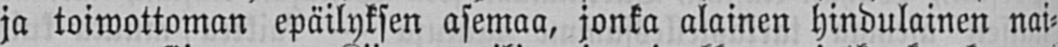ja toiwottoman epäilyksen asemaa, jonka alainen hindulainen nai-
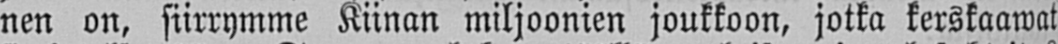nen on, siirrymme Kiinan miljoonien joukkoon, jotka kerskaawat
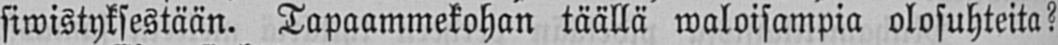siwistyksestään. Tapaammekohan täällä waloisampia olosuhteita?
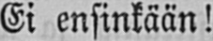Ei ensinkään!
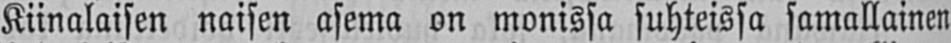Kiinalaisen naisen asema on monissa suhteissa samallainen
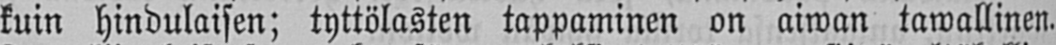kuin hindulaisen; tyttölasten tappaminen on aiwan tawallinen.
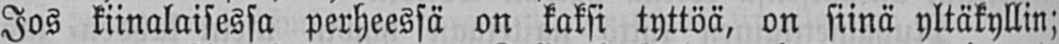Jos kiinalaisessa perheessä on kaksi tyttöä, on siinä yltäkyllin;
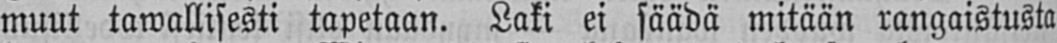muut tawallisesti tapetaan. Laki ei säädä mitään rangaistusta
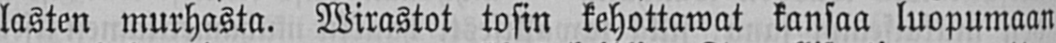lasten murhasta. Wirastot tosin kehottawat kansaa luopumaan
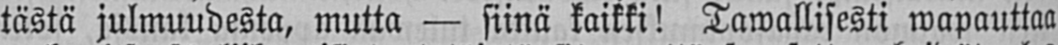tästä julmuudesta, mutta — siinä kaikki! Tawallisesti wapauttaa
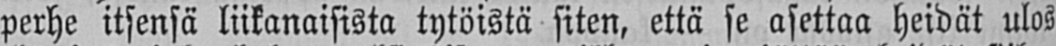perhe itsensä liikanaisista tytöistä siten, että se asettaa heidät ulos
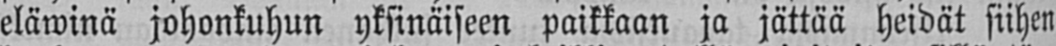eläwinä johonkuhun yksinäiseen paikkaan ja jättää heidät siihen
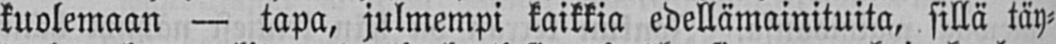kuolemaan — tapa, julmempi kaikkia edellämainituita, sillä täy-
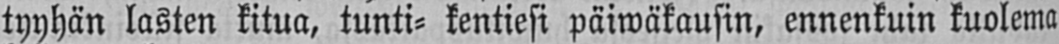tyyhän lasten kitua, tunti- kentiesi päiwäkausin, ennenkuin kuolema
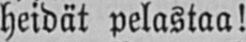heidät pelastaa!
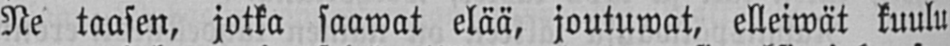Ne taasen, jotka saawat elää, joutuwat, elleiwät kuulu
